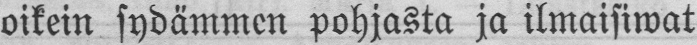oikein sydämmen pohjasta ja ilmaisiwat
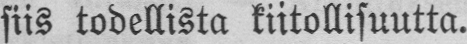siis todellista kiitollisuutta.
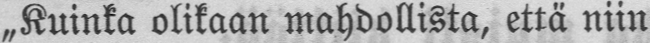„Kuinka olikaan mahdollista, että niin
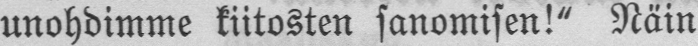unohdimme kiitosten sanomisen!" Näin
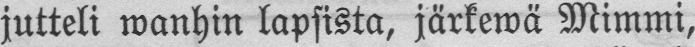jutteli wanhin lapsista, järkewä Mimmi,
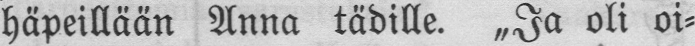häpeillään Anna tädille. „Ja oli oi-
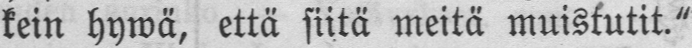kein hywä, että siitä meitä muistutit."
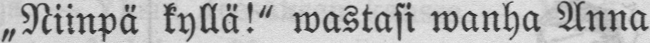„Niinpä kyllä!" wastasi wanha Anna
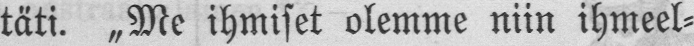täti. „Me ihmiset olemme niin ihmeel-
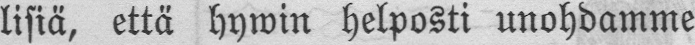lisiä, että hywin helposti unohdamme
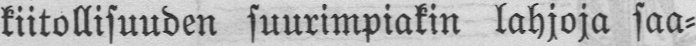kiitollisuuden suurimpiakin lahjoja saa-
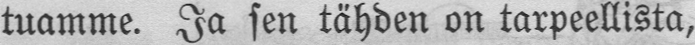tuamme. Ja sen tähden on tarpeellista,
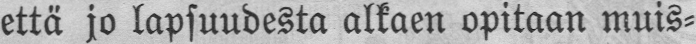että jo lapsuudesta alkaen opitaan muis-
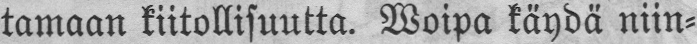tamaan kiitollisuutta. Woipa käydä niin-
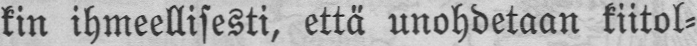kin ihmeellisesti, että unohdetaan kiitol-
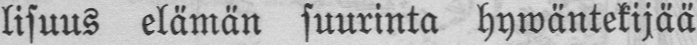lisuus elämän suurinta hywäntekijää
